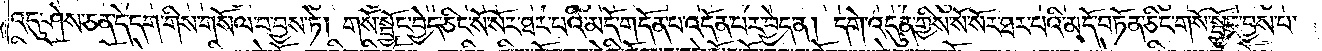འདུ་ཤེས་ཅན་དེ་དག་གིས་གསོལ་བ་བྱས་ཏེ། གསོ་སྦྱོང་བྱེད་ཅིང་སོ་སོར་ཐར་པའི་མདོ་གདོན་པ་འདོན་པར་བྱེད་ན། དགེ་འདུན་གྱིས་སོ་སོར་ཐར་པའི་མདོ་བཏོན་ཅིང་གསོ་སྦྱོང་བྱས་པ་
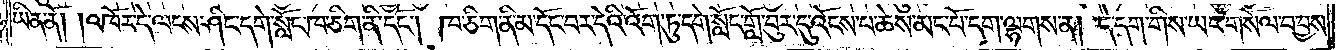ཡིན་ནོ། །འཁོར་དེ་ལངས་ཤིང་དགེ་སློང་ཁ་ཅིག་ནི་དོང༌། ཁ་ཅིག་ནི་མ་དོང་བར་དེའི་འོག་ཏུ་དགེ་སློང་གློ་བུར་དུ་འོངས་པ་ཆེས་མང་པོ་དག་ལྷགས་ན། དེ་དག་གིས་ཡང་གསོལ་བ་བྱས་
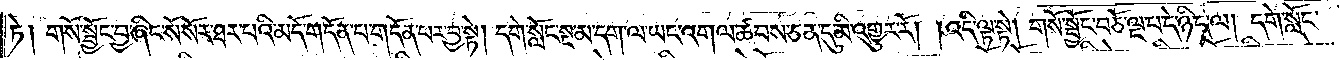ཏེ། གསོ་སྦྱོང་བྱ་ཞིང་སོ་སོར་ཐར་པའི་མདོ་གདོན་པ་གདོན་པར་བྱ་སྟེ། དགེ་སློང་སྔ་མ་དག་ལ་ཡང་འགལ་ཚབས་ཅན་དུ་མི་འགྱུར་རོ། །འདི་ལྟ་སྟེ། གསོ་སྦྱོང་བཅོ་ལྔ་པ་དེ་ཉིད་ལ། དགེ་སློང་
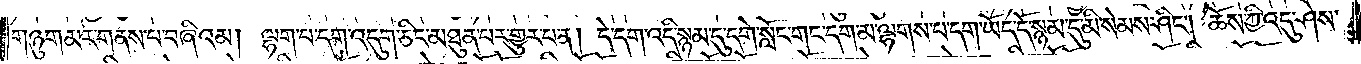གཉུག་མར་གནས་པ་བཞིའམ། ལྷག་པ་དག་འདུག་ཅིང་མཐུན་པར་གྱུར་པ་ན། དེ་དག་འདི་སྙམ་དུ་དགེ་སློང་གང་དག་མ་ལྷགས་པ་དག་ཡོད་དོ་སྙམ་དུ་མི་སེམས་ཤིང༌། ཆོས་ཀྱི་འདུ་ཤེས་
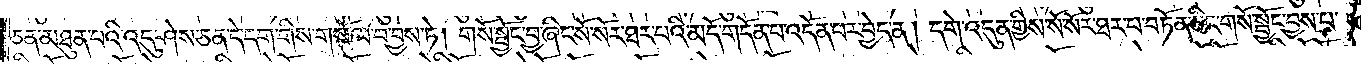ཅན་མཐུན་པའི་འདུ་ཤེས་ཅན་དེ་དག་གིས་གསོལ་བ་བྱས་ཏེ། གསོ་སྦྱོང་བྱ་ཞིང་སོ་སོར་ཐར་པའི་མདོ་གདོན་པ་འདོན་པར་བྱེད་ན། དགེ་འདུན་གྱིས་སོ་སོར་ཐར་པ་བཏོན་ཅིང་གསོ་སྦྱོང་བྱས་པ་
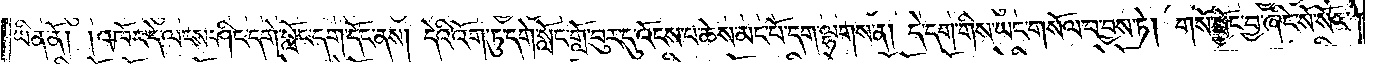ཡིན་ནོ། །འཁོར་དེ་ལངས་ཤིང་དགེ་སློང་དག་དོང་ནས། དེའི་འོག་ཏུ་དགེ་སློང་གློ་བུར་དུ་འོངས་པ་ཆེས་མང་པོ་དག་ལྷགས་ན། དེ་དག་གིས་ཡང་གསོལ་བ་བྱས་ཏེ། གསོ་སྦྱོང་བྱ་ཞིང་སོ་སོར་
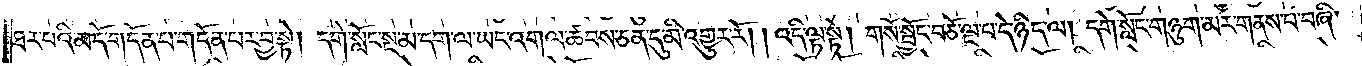ཐར་པའི་མདོ་གདོན་པ་གདོན་པར་བྱ་སྟེ། དགེ་སློང་སྔ་མ་དག་ལ་ཡང་འགལ་ཚབས་ཅན་དུ་མི་འགྱུར་རོ། །འདི་ལྟ་སྟེ། གསོ་སྦྱོང་བཅོ་ལྔ་པ་དེ་ཉིད་ལ། དགེ་སློང་གཉུག་མར་གནས་པ་བཞི་
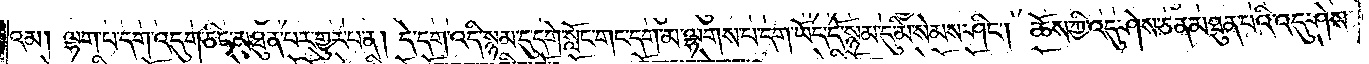འམ། ལྷག་པ་དག་འདུག་ཅིང་མཐུན་པར་གྱུར་པ་ན། དེ་དག་འདི་སྙམ་དུ་དགེ་སློང་གང་དག་མ་ལྷགས་པ་དག་ཡོད་དོ་སྙམ་དུ་མི་སེམས་ཤིང༌། ཆོས་ཀྱི་འདུ་ཤེས་ཅན་མཐུན་པའི་འདུ་ཤེས་
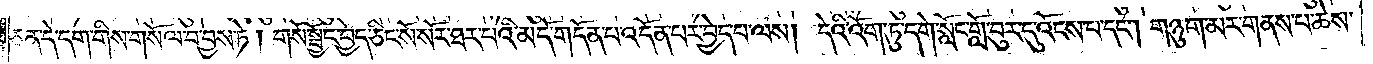ཅན་དེ་དག་གིས་གསོལ་བ་བྱས་ཏེ། གསོ་སྦྱོང་བྱེད་ཅིང་སོ་སོར་ཐར་པའི་མདོ་གདོན་པ་འདོན་པར་བྱེད་པ་ལས། དེའི་འོག་ཏུ་དགེ་སློང་གློ་བུར་དུ་འོངས་པ་དང༌། གཉུག་མར་གནས་པ་ཆེས་
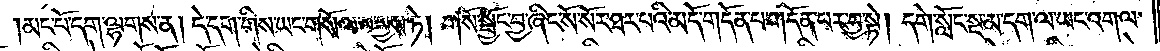མང་པོ་དག་ལྷགས་ན། དེ་དག་གིས་ཡང་གསོལ་བ་བྱས་ཏེ། གསོ་སྦྱོང་བྱ་ཞིང་སོ་སོར་ཐར་པའི་མདོ་གདོན་པ་གདོན་པར་བྱ་སྟེ། དགེ་སློང་སྔ་མ་དག་ལ་ཡང་འགལ་
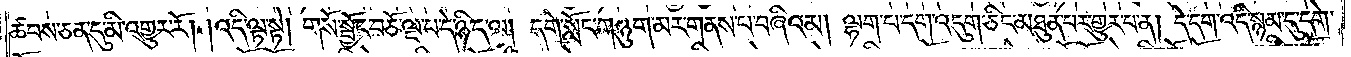ཚབས་ཅན་དུ་མི་འགྱུར་རོ། །འདི་ལྟ་སྟེ། གསོ་སྦྱོང་བཅོ་ལྔ་པ་དེ་ཉིད་ལ། དགེ་སློང་གཉུག་མར་གནས་པ་བཞིའམ། ལྷག་པ་དག་འདུག་ཅིང་མཐུན་པར་གྱུར་པ་ན། དེ་དག་འདི་སྙམ་དུ་དགེ་
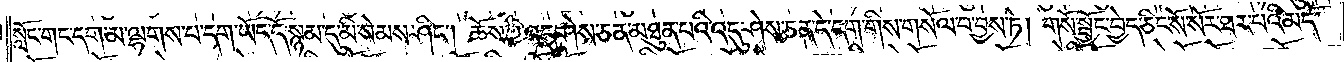སློང་གང་དག་མ་ལྷགས་པ་དག་ཡོད་དོ་སྙམ་དུ་མི་སེམས་ཤིང༌། ཆོས་ཀྱི་འདུ་ཤེས་ཅན་མཐུན་པའི་འདུ་ཤེས་ཅན་དེ་དག་གིས་གསོལ་བ་བྱས་ཏེ། གསོ་སྦྱོང་བྱེད་ཅིང་སོ་སོར་ཐར་པའི་མདོ་
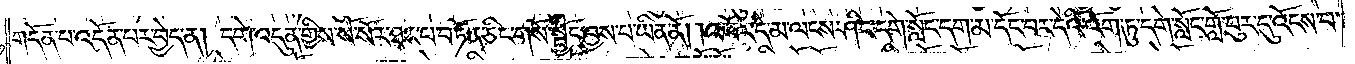གདོན་པ་འདོན་པར་བྱེད་ན། དགེ་འདུན་གྱིས་སོ་སོར་ཐར་པ་བཏོན་ཅིང་གསོ་སྦྱོང་བྱས་པ་ཡིན་ནོ། །འཁོར་དེ་མ་ལངས་ཤིང་དགེ་སློང་དག་མ་དོང་བར་དེའི་འོག་ཏུ་དགེ་སློང་གློ་བུར་དུ་འོངས་པ་
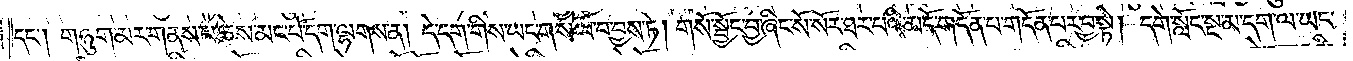དང༌། གཉུག་མར་གནས་པ་ཆེས་མང་པོ་དག་ལྷགས་ན། དེ་དག་གིས་ཡང་གསོལ་བ་བྱས་ཏེ། གསོ་སྦྱོང་བྱ་ཞིང་སོ་སོར་ཐར་པའི་མདོ་གདོན་པ་གདོན་པར་བྱ་སྟེ། དགེ་སློང་སྔ་མ་དག་ལ་ཡང་
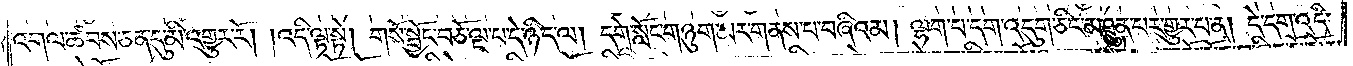འགལ་ཚབས་ཅན་དུ་མི་འགྱུར་རོ། །འདི་ལྟ་སྟེ། གསོ་སྦྱོང་བཅོ་ལྔ་པ་དེ་ཉིད་ལ། དགེ་སློང་གཉུག་མར་གནས་པ་བཞིའམ། ལྷག་པ་དག་འདུག་ཅིང་མཐུན་པར་གྱུར་པ་ན། དེ་དག་འདི་
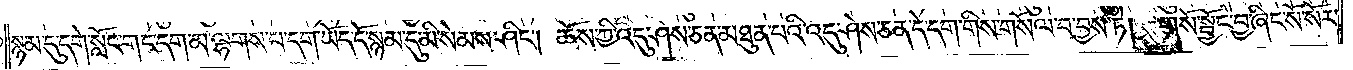སྙམ་དུ་དགེ་སློང་གང་དག་མ་ལྷགས་པ་དག་ཡོད་དོ་སྙམ་དུ་མི་སེམས་ཤིང༌། ཆོས་ཀྱི་འདུ་ཤེས་ཅན་མཐུན་པའི་འདུ་ཤེས་ཅན་དེ་དག་གིས་གསོལ་བ་བྱས་ཏེ། གསོ་སྦྱོང་བྱ་ཞིང་སོ་སོར་
